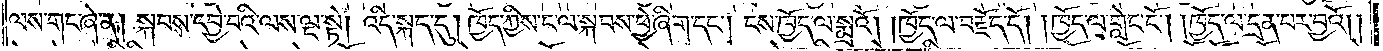ལས་གང་ཞེ་ན། སྐབས་དབྱེ་བའི་ལས་ལྔ་སྟེ། འདི་སྐད་དུ། ཁྱོད་ཀྱིས་ང་ལ་སྐབས་ཕྱེ་ཞིག་དང༌། ངས་ཁྱོད་ལ་སྨྲའོ། །ཁྱོད་ལ་བརྗོད་དོ། །ཁྱོད་ལ་གླེང་ངོ༌། །ཁྱོད་ལ་དྲན་པར་བྱའོ། །
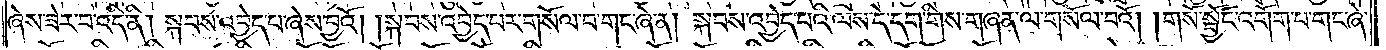ཞེས་ཟེར་བ་འདི་ནི། སྐབས་འབྱེད་པ་ཞེས་བྱའོ། །སྐབས་འབྱེད་པར་གསོལ་བ་གང་ཞེ་ན། སྐབས་འབྱེད་པའི་ལས་དེ་དག་གིས་གཞན་ལ་གསོལ་བའོ། །གསོ་སྦྱོང་འགོག་པ་གང་ཞེ་
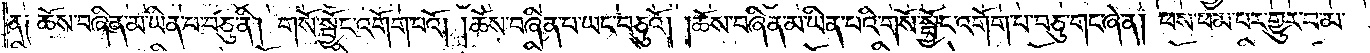ན༑ ཆོས་བཞིན་མ་ཡིན་པ་བཅུ་ནི། གསོ་སྦྱོང་འགོག་པའོ། །ཆོས་བཞིན་པ་ཡང་བཅུའོ། །ཆོས་བཞིན་མ་ཡིན་པའི་གསོ་སྦྱོང་འགོག་པ་བཅུ་གང་ཞེ་ན། ཕས་ཕམ་པར་གྱུར་བ་མ་
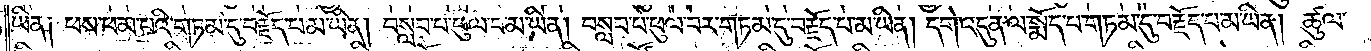ཡིན༑ ཕས་ཕམ་པའི་གཏམ་དུ་བརྗོད་པ་མ་ཡིན། བསླབ་པ་ཕུལ་བ་མ་ཡིན། བསླབ་པ་ཕུལ་བར་གཏམ་དུ་བརྗོད་པ་མ་ཡིན། དགེ་འདུན་ལ་སྨོད་པ་གཏམ་དུ་བརྗོད་པ་མ་ཡིན། ཚུལ་
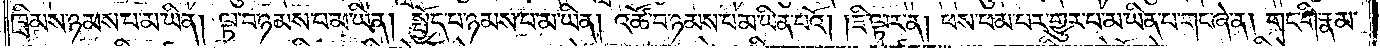ཁྲིམས་ཉམས་པ་མ་ཡིན། ལྟ་བ་ཉམས་པ་མ་ཡིན། སྤྱོད་པ་ཉམས་པ་མ་ཡིན། འཚོ་བ་ཉམས་པ་མ་ཡིན་པའོ། །ཇི་ལྟར་ན། ཕས་ཕམ་པར་གྱུར་པ་མ་ཡིན་པ་གང་ཞེ་ན། གང་གི་རྣམ་
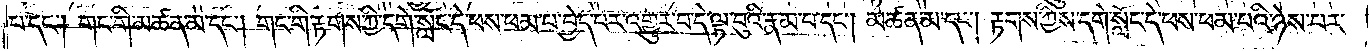པ་དང༌། གང་གི་མཚན་མ་དང༌། གང་གི་རྟགས་ཀྱི་དགེ་སློང་དེ་ཕས་ཕམ་པར་བྱེད་པར་འགྱུར་བ་དེ་ལྟ་བུའི་རྣམ་པ་དང༌། མཚན་མ་དང༌། རྟགས་ཀྱིས་དགེ་སློང་དེ་ཕས་ཕམ་པའི་ཉེས་པར་
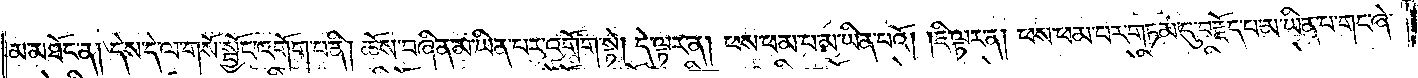མ་མཐོང་ན། དེས་དེ་ལ་གསོ་སྦྱོང་འགོག་པ་ནི། ཆོས་བཞིན་མ་ཡིན་པར་འགོག་སྟེ། དེ་ལྟར་ན། ཕས་ཕམ་པ་མ་ཡིན་པའོ། །ཇི་ལྟར་ན། ཕས་ཕམ་པར་གཏམ་དུ་བརྗོད་པ་མ་ཡིན་པ་གང་ཞེ་
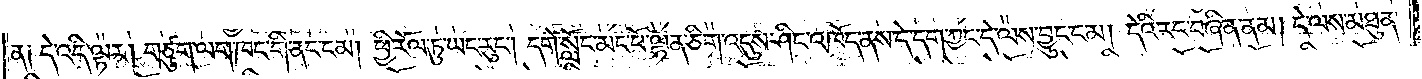ན༑ དེ་འདི་ལྟར། གཙུག་ལག་ཁང་གི་ནང་ངམ། ཕྱི་རོལ་ཏུ་ཡང་རུང༌། དགེ་སློང་མང་པོ་ལྷན་ཅིག་འདུས་ཤིང་འཁོད་ནས་དེ་དག་ཀྱང་དེ་ལས་བྱུང་ངམ། དེའི་རང་བཞིན་ནམ། དེ་ལས་མཐུན་
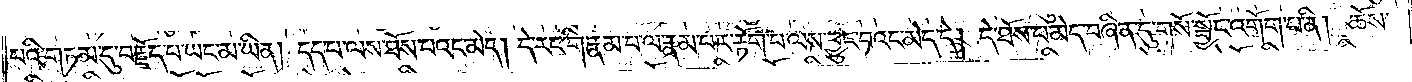པའི་གཏམ་དུ་བརྗོད་པ་ཡང་མ་ཡིན། དད་པ་ལས་ཐོས་པའང་མེད། དེ་རང་གི་རྣམ་པ་ལ་རྣམ་པར་རྟོག་པ་ལས་བྱུང་བའང་མེད་དེ། དེ་ཐོས་པ་མེད་བཞིན་དུ་གསོ་སྦྱོང་འགོག་པ་ནི། ཆོས་
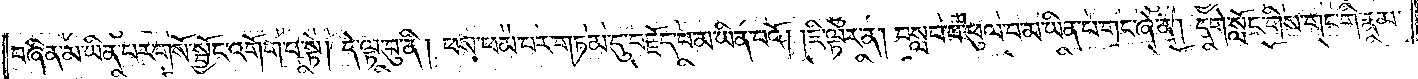བཞིན་མ་ཡིན་པར་གསོ་སྦྱོང་འགོག་པ་སྟེ། དེ་ལྟ་བུ་ནི། ཕས་ཕམ་པར་གཏམ་དུ་བརྗོད་པ་མ་ཡིན་པའོ། །ཇི་ལྟར་ན། བསླབ་པ་ཕུལ་བ་མ་ཡིན་པ་གང་ཞེ་ན། དགེ་སློང་གིས་གང་གི་རྣམ་
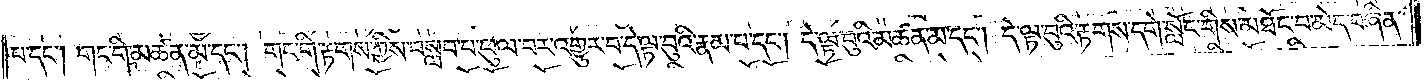པ་དང༌། གང་གི་མཚན་མ་དང༌། གང་གི་རྟགས་ཀྱིས་བསླབ་པ་ཕུལ་བར་འགྱུར་བ་དེ་ལྟ་བུའི་རྣམ་པ་དང༌། དེ་ལྟ་བུའི་མཚན་མ་དང༌། དེ་ལྟ་བུའི་རྟགས་དགེ་སློང་གིས་མཐོང་བ་མེད་བཞིན་
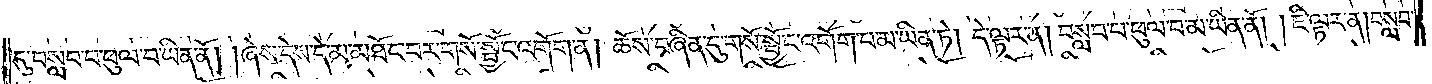དུ་བསླབ་པ་ཕུལ་བ་ཡིན་ནོ། །ཞེས་དེས་དེ་མ་མཐོང་བར་གསོ་སྦྱོང་འགོག་ན། ཆོས་བཞིན་དུ་གསོ་སྦྱོང་འགོག་པ་མ་ཡིན་ཏེ། དེ་ལྟར་ན། བསླབ་པ་ཕུལ་བ་མ་ཡིན་ནོ། །ཇི་ལྟར་ན། བསླབ་
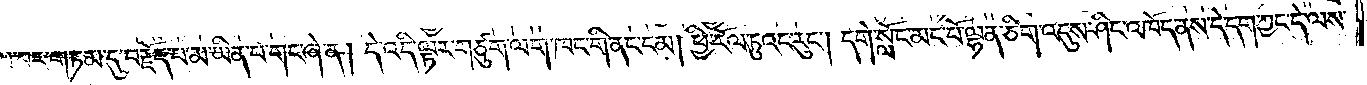པ་ཕུལ་བར་གཏམ་དུ་བརྗོད་པ་མ་ཡིན་པ་གང་ཞེ་ན། དེ་འདི་ལྟར་གཙུག་ལག་ཁང་གི་ནང་ངམ། ཕྱི་རོལ་ཏུའང་རུང༌། དགེ་སློང་མང་པོ་ལྷན་ཅིག་འདུས་ཤིང་འཁོད་ནས་དེ་དག་ཀྱང་དེ་ལས་
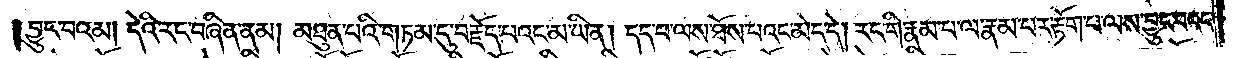བྱུང་བའམ། དེའི་རང་བཞིན་ནམ། མཐུན་པའི་གཏམ་དུ་བརྗོད་པའང་མ་ཡིན། དད་པ་ལས་ཐོས་པའང་མེད་དེ། རང་གི་རྣམ་པ་ལ་རྣམ་པར་རྟོག་པ་ལས་བྱུང་བའང་
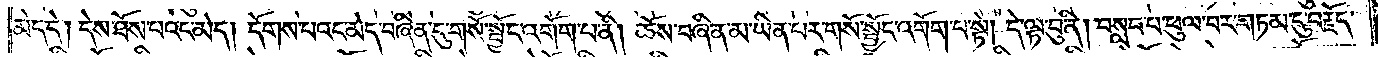མེད་དེ། དེས་ཐོས་པའང་མེད། དོགས་པའང་མེད་བཞིན་དུ་གསོ་སྦྱོང་འགོག་པ་ནི། ཆོས་བཞིན་མ་ཡིན་པར་གསོ་སྦྱོང་འགོག་པ་སྟེ། དེ་ལྟ་བུ་ནི། བསླབ་པ་ཕུལ་བར་གཏམ་དུ་བརྗོད་
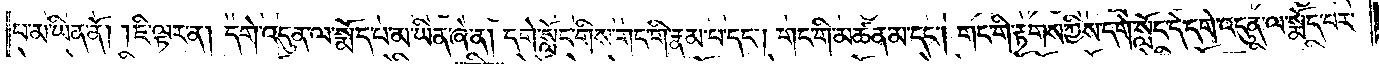པ་མ་ཡིན་ནོ། །ཇི་ལྟར་ན། དགེ་འདུན་ལ་སྨོད་པ་མ་ཡིན་ཞེ་ན། དགེ་སློང་གིས་གང་གི་རྣམ་པ་དང༌། གང་གི་མཚན་མ་དང༌། གང་གི་རྟགས་ཀྱིས་དགེ་སློང་དེ་དགེ་འདུན་ལ་སྨོད་པར་
